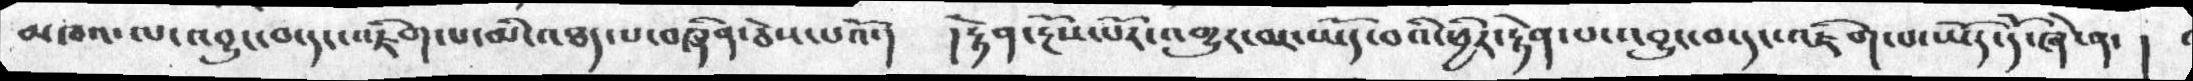མཁའ་ལ་འབྱུང་བ་དང་འཇིག་པ་མི་འཐད་པ་བཞིན་ཅེས་པའོ་།  །རྟེན་རྔོས་པོར་འགྱུར་བར་ཡོད་ཕྱིར་རྟེན་པ་འབྱུང་བ་དང་འཇིག་པ་ཡོད་དོ་ཞེ་ན་ །
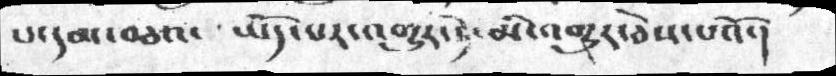པ་དམ་བཅའ་ ཡོད་པར་འགྱུར་ཏེ་མི་འགྱུར་ཅེས་པའོ་།
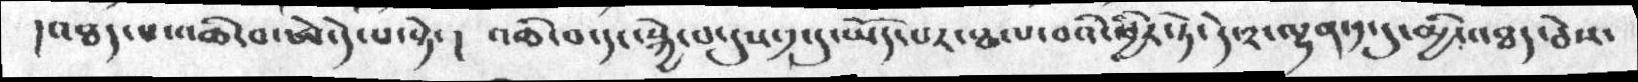།འཐད་པ་འཆི་མ་ཨེ་དེ་པ་སྟེ་།  འཆི་བ་དང་སྐྱེ་བ་དུས་༡་དུ་ཡོད་པར་ཐལ་བའི་ཕྱིར་ཏེ་དེ་༢་ལྷན་༡་དུ་མྱི་འཐད་ཅེས་
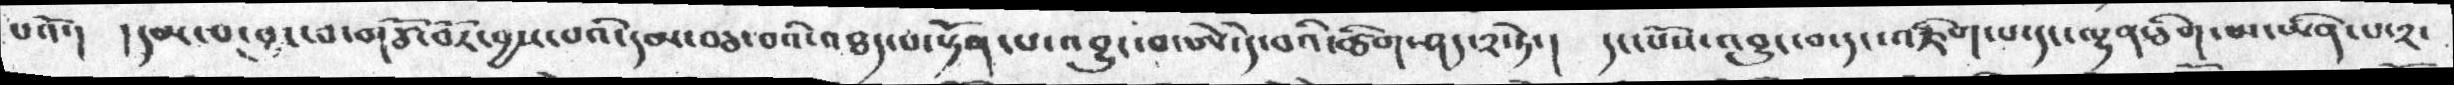པའོ་།  །དམ་པ་བྱུང་བ་གཙོ་བོར་བྱས་པའི་དམ་བཅ་བའི་འཐད་པ་སྟོན་པ་འབྱུང་བ་ཨེ་དེ་བའི་ཚིག་ཤད་༢་ཏེ་། དང་པོས་འབྱུང་བ་དང་འཇིག་པ་དང་ལྷན་ཅིག་མ་ཡིན་པ་༢་
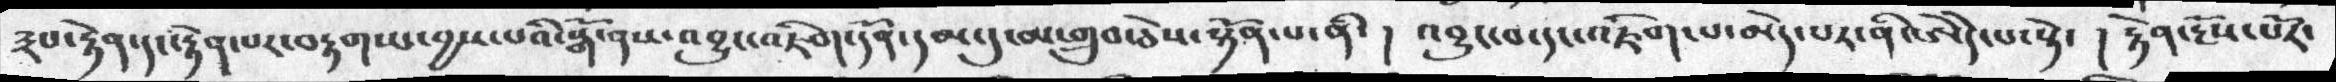༣པ་རྟེན་དང་རྟེན་པར་བརྟག་པ་བྱས་པའི་སྒོ་ནས་འབྱུང་འཇིག་དོན་དམ་དུ་མ་གྲུབ་ཅེས་སྟོན་པ་ནི་། འབྱུང་བ་དང་འཇིག་པ་མེད་པར་ནི་ཨེདེ་པ་སྟེ་། རྟེན་རྔོས་པོར་
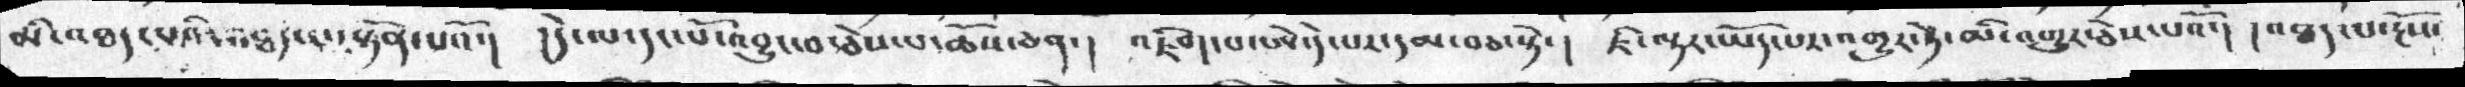མི་འཐད་པའི་འཐད་པ་སྟོན་པའོ་། །དེ་ལ་དང་པོ་འབྱུང་བ་ཅེས་པ་ཆོས་ཅན་། འཇིག་པ་ཨེ་དེ་པར་དམ་བཅ་སྟེ་། ཇི་ལྟར་ཡོད་པར་འགྱུར་ཏེ་མི་འགྱུར་ཅེས་པའོ་། །འཐད་པ་རྔོས་
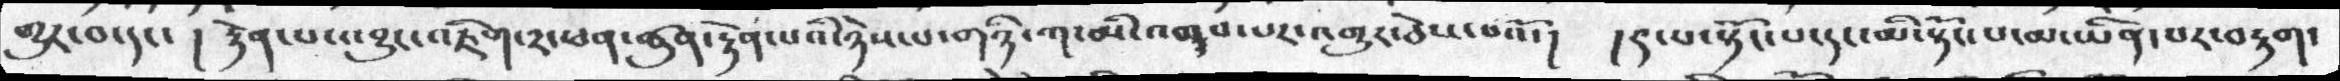གྱུར་བ་དང་། རྟེན་པ་འབྱུང་འཇིག་༢་ཕན་ཚུན་རྟེན་པའི་ཉེས་པ་གཉི་ཀ་མི་འགབ་པར་འགྱུར་ཅེས་པའོ་།  །༩་པ་སྟོང་པ་དང་མི་སྟོང་པ་མ་ཡིན་པར་བརྟག་
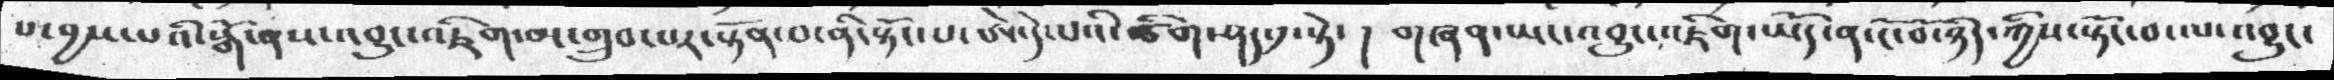པ་བྱས་པའི་སྒོ་ནས་འབྱུང་འཇིག་མ་གྲུབ་པར་སྟོན་པ་ནི་སྟོང་པ་ཨེ་དེ་པའི་ཚིག་ཤད་༡་སྟེ་། གཞན་ཡང་འབྱུང་འཇིག་ཡོད་ན་ངོ་བོ་ཉིད་ཀྱིས་སྟོང་བ་ལ་འབྱུང་
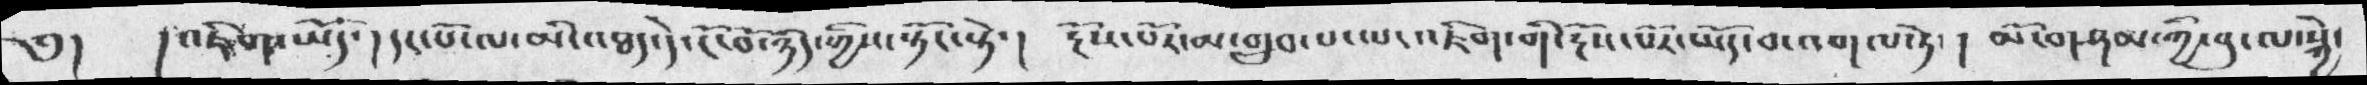༅།  །འཇིག་ཡོད་། དང་པོ་ལ་མི་འཐད་དེ་ངོ་བོ་ཉིད་ཀྱིས་སྟོང་སྟེ་།  རྔོས་པོར་མ་གྲུབ་པ་ཡང་འཇིག་གི་རྔོས་པོར་ཡོད་བ་འགལ་ཏེ་། མོ་གཤམ་ཀྱི་བུ་ལ་སྐྱེ་
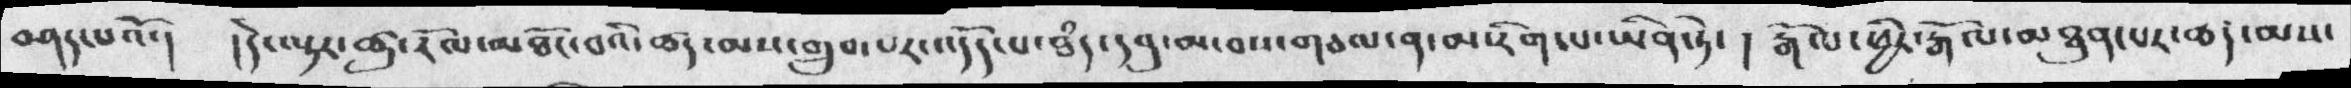བཤད་པའོ་།  །དེ་ལྟར་ཚུ་རོལ་མཐོང་བའི་ཚད་ལས་གྲུབ་པར་འདོད་པ་ཐཾད་དབུ་མ་བས་གཅལ་ན་མ་རིག་པ་ཡིན་ཏེ་། རྒོལ་ཕྱིར་རྒོལ་མཐུན་པར་ཚད་མས་
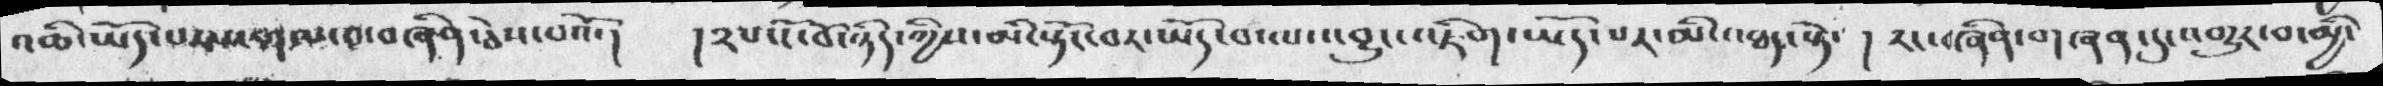འཆི་ཡོད་པར་འགལ་བ་བཞིན་ཅེས་པའོ་།   །༢པ་ངོ་བོ་ཉིད་ཀྱིས་མི་སྟོང་བར་ཡོད་པ་ལ་འབྱུང་འཇིག་ཡོད་པར་མི་འཐད་སྟེ་ །  རང་བཞིན་གཞན་དུ་འགྱུར་བ་མྱིད
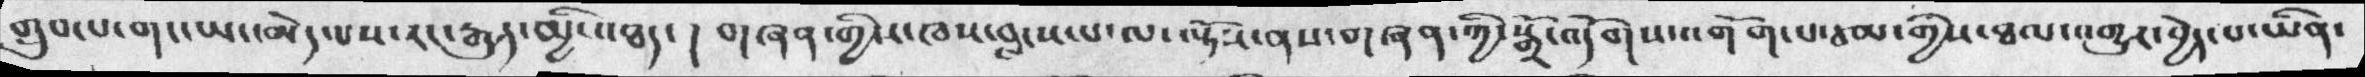གྲུབ་པ་གང་ཡང་མེད་པས་རང་རྒུད་མྱི་འཐད་ །  གཞན་གྱི་ཁས་བླངས་པ་ལ་ལྟོས་ནས་གཞན་ཀྱི་སྒྲོ་འདོགས་འགོག་པ་ཙམ་གྱིས་ཐལ་འགྱུར་བྱེད་པ་ཡིན་
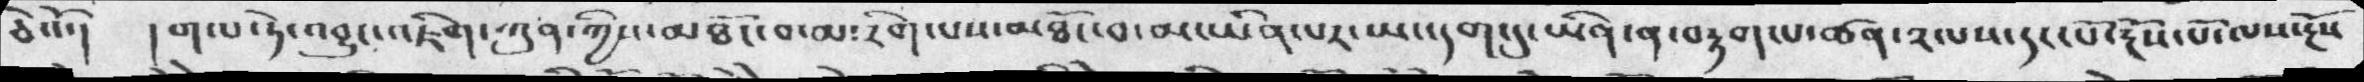ཅེའོ་།  །གལ་ཏེ་འབྱུང་འཇིག་ཀུན་ཀྱིས་མཐོང་བ་མ་རིག་པས་མཐོང་བ་མ་ཡིན་པར་ཡང་དག་དུ་ཡིན་ན་བརྟག་པ་ཚན་༢་པས་དང་པ་རྔོས་པོ་ལས་རྔོས
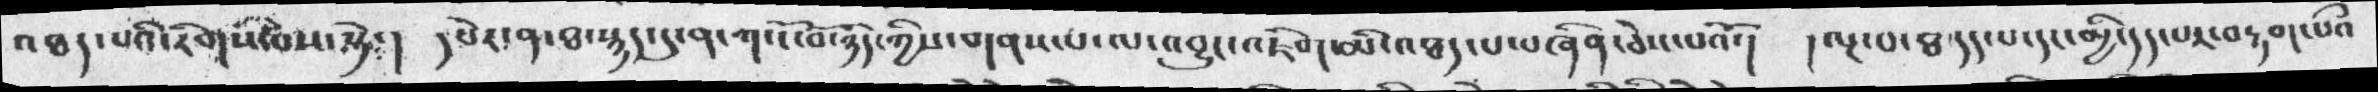འཐད་པའི་རིགས་བས་སྟེ་།  དཔེར་ན་ཐ་སྙད་དུ་ན་ཀ་ངོ་བོ་ཉིད་ཀྱིས་གནས་པ་ལ་འབྱུང་འཇིག་མི་འཐད་པ་བཞིན་ཅེས་པའོ་།   །ལྔ་པ་ཐ་དད་པ་དང་མྱི་དད་པར་བརྟག་པའི
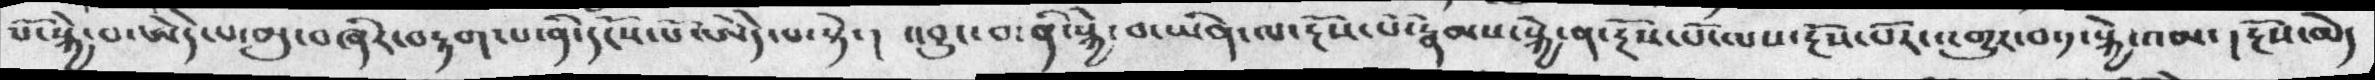པོ་སྐྱེ་པ་ཨེདེ་པ་མུ་བཞིར་བརྟག་པ་ནི་དངོས་པོ་ཨེདེ་པ་སྟེ་།  འབྱུང་བ་ནི་སྐྱེ་བ་ཡིན་ལ་རྔོས་པོ་རྣམས་སྐྱེ་ན་རྔོས་པོ་ལས་རྔོས་པོར་འགྱུར་བ༡་སྐྱེ་འམ་ ། རྔོས་མེད
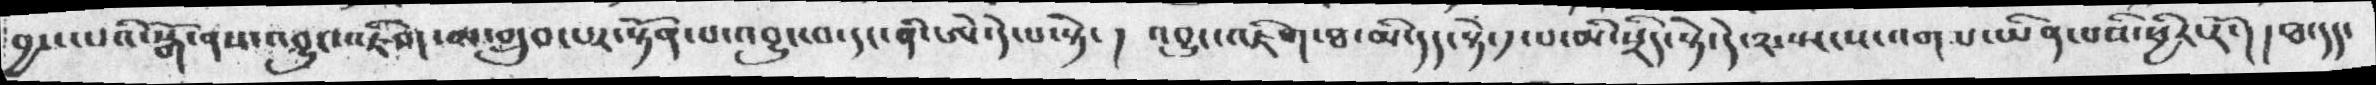བྱས་པའི་སྒོ་ནས་འབྱུང་འཇིག་མ་གྲུབ་པར་སྟོན་པ་འབྱུང་བ་དང་ནི་ཨེད་དེ་པ་སྟེ་།  འབྱུང་འཇིག་ཐ་མི་དད་སྟེ་༡་པ་མི་སྲིད་སྟེ་དེ་༢་སྤངས་འགལ་ཡིན་པའི་ཕྱིར་རོ་། །ཐ་དད་
